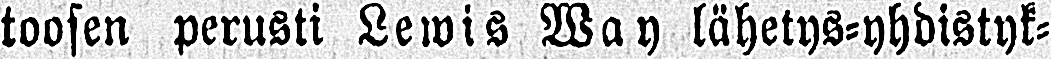toosen perusti Lewis Way lähetys-yhdistyk-
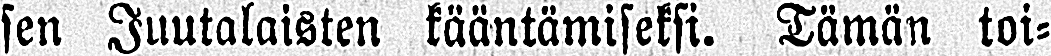sen Juutalaisten kääntämiseksi. Tämän toi-
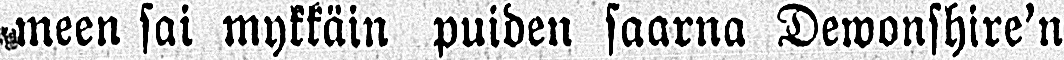meen sai mykkäin puiden saarna Dewonshire’n
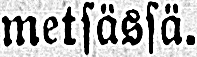metsässä.
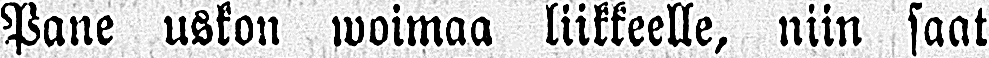Pane uskon woimaa liikkeelle, niin saat
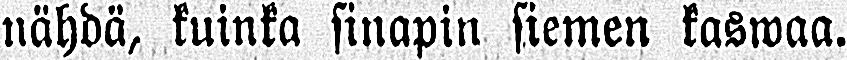nähdä, kuinka sinapin siemen kaswaa.
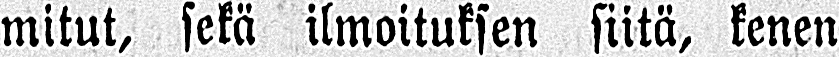mitut, sekä ilmoituksen siitä, kenen
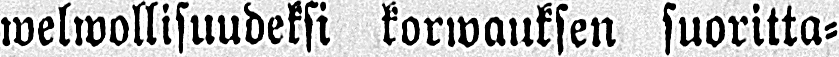welwollisuudeksi korwauksen suoritta-
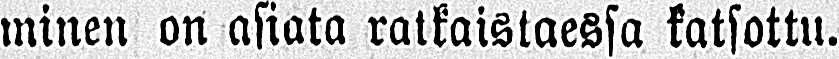minen on asiata ratkaistaessa katsottu.
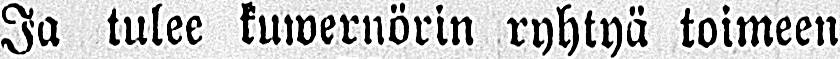Ja tulee kuwernörin ryhtyä toimeen
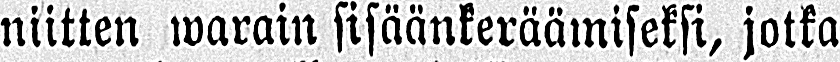niitten warain sisäänkeräämiseksi, jotka
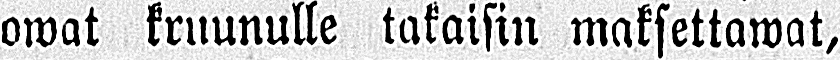owat kruunulle takaisin maksettawat,
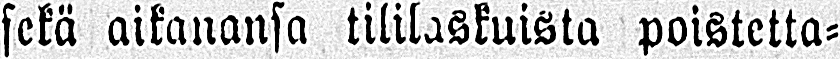sekä aikanansa tililaskuista poistetta-
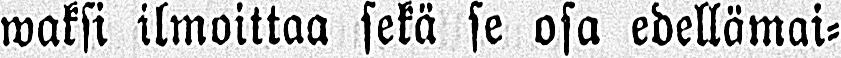waksi ilmoittaa sekä se osa edellämai-
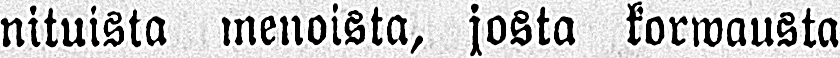nituista menoista, josta korwausta
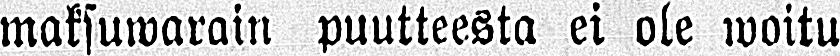maksuwarain puutteesta ei ole woitu
